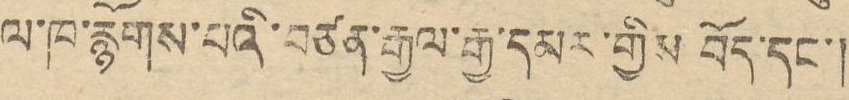ལ་ཁ་རྙོགས་པའི་བཙན་རྒྱལ་རྒྱ་དམར་གྱིས བོད་དང་།
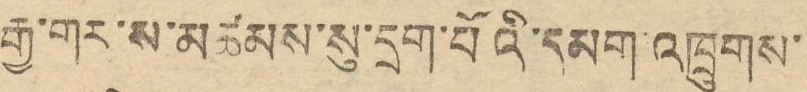རྒྱ་གར་ས་མཚམས་སུ་དྲག་པོའི་དམག་འཁྲུགས་
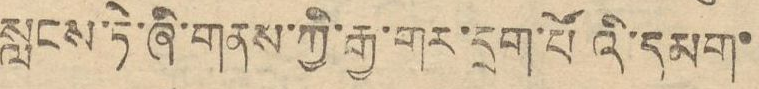སླངས་ཏེ་ཞི་གནས་ཀྱི་རྒྱ་གར་དྲག་པོའི་དམག་
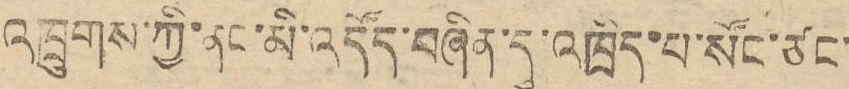འཁྲུགས་ཀྱི་ནང་མི་འདོད་བཞིན་དུ་འཁྲིད་པ་སོང་ཙང་
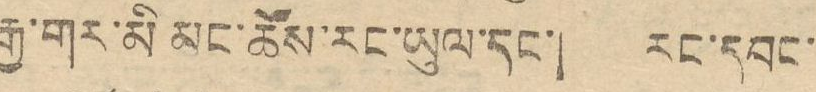རྒྱ་གར་མི མང་ཚོས་རང་ཡུལ་དང་། རང་དབང་
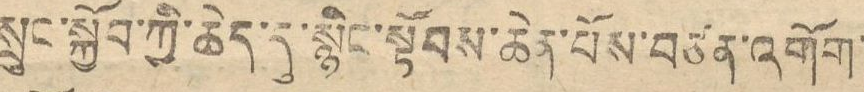སྲུང་སྐྱོབ་ཀྱི་ཆེད་དུ་སྙིང་སྟོབས་ཆེན་པོས་བཙན་འགོག་
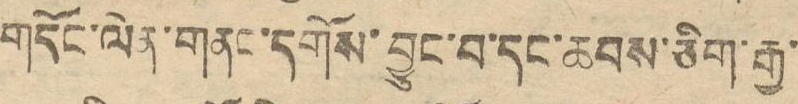གདོང་ལེན་གནང་དགོས་བྱུང་བ་དང་ཆབས་ཅིག་རྒྱ་
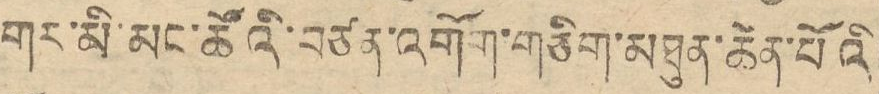གར་མི་མང་ཚོའི་བཙན་འགོག་གཅིག་མཐུན་ཆེན་པོའི
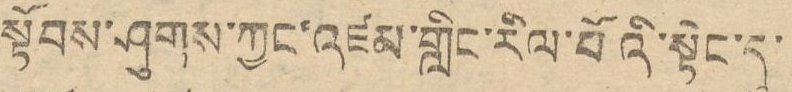སྟོབས་ཤུགས་ཀྱང་འཛམ་གླིང་རིལ་པོའི་སྟེང་དུ་
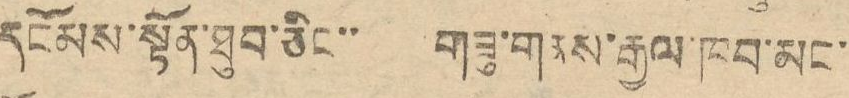དངོམས་སྟོན་ཐུབ་ཅིང་་ གཟུ་གནས་རྒྱལ་ཁབ་མང་
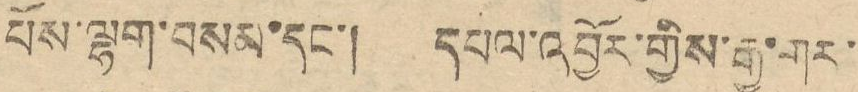པོས་ལྷག་བསམ་དང་། དཔལ་འབྱོར་གྱིས་རྒྱ་གར་
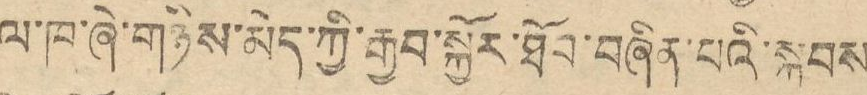ལ་ཁ་ཞེ་གཉིས་མེད་ཀྱི་རྒྱབ་སྐྱོར་ཐོབ་བཞིན་པའི་སྐབས
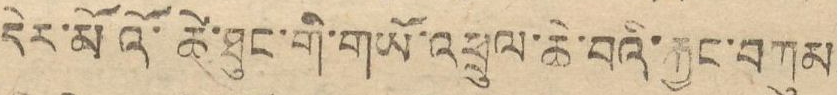དེར་མོའི་ཚེ་ཐུང་གི་གཡོ་འཕྲུལ་ཆེ་བའི་རྐྱང་བཀུམ་
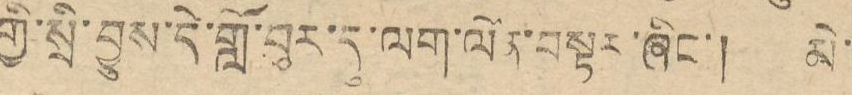གྱི་སྲི་བྱུས་དེ་གློ་བུར་དུ་ལག་ལེན་བསྟར་ཞིང་། མེ་
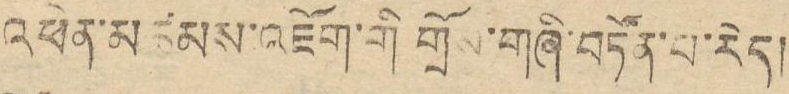འཕེན་མཚམས་འཇོག་གི གྲོས་གཞི་བཏོན་པ་རེད།
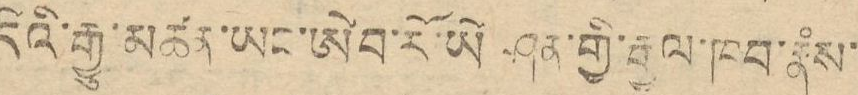དེའི་རྒྱུ་མཚན་ཡང་ཨེབ་རོ་ཡེ་ཤན་གྱི་རྒྱལ་ཁབ་རྣཾས་
